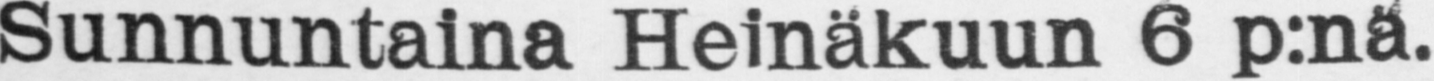Sunnuntaina Heinäkuun 6 p:nä.
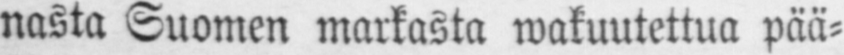nasta Suomen markasta wakuutettua pää-
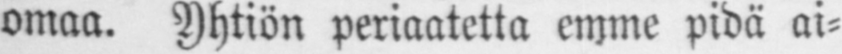omaa. Yhtiön periaatetta emme pidä ai-
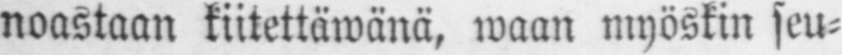noastaan kiitettäwänä, waan myöskin seu-
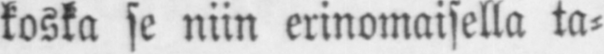koska se niin erinomaisella ta-
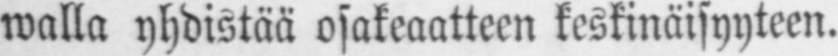walla yhdistää osakeaatteen keskinäisyyteen.
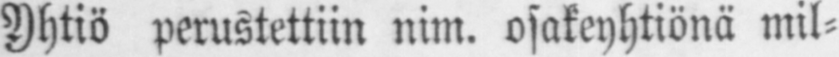Yhtiö perustettiin nim. osakeyhtiönä mil-
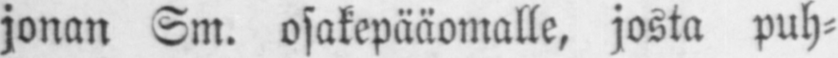jonan Sm. osakepääomalle, josta puh-
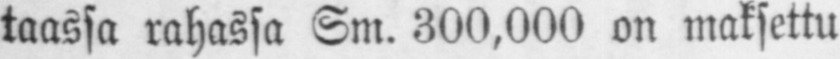taassa rahassa Sm. 300,000 on maksettu
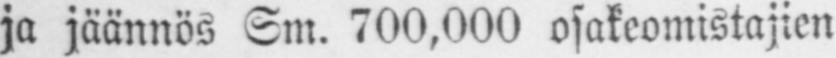ja jäännös Sm. 700,000 osakeomistajien
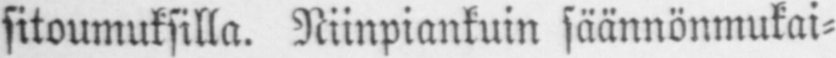sitoumuksilla. Niinpiankuin säännönmukai-
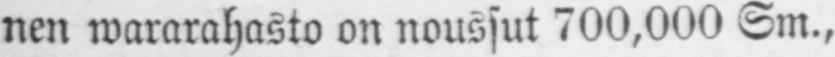nen wararahasto on noussut 700,000 Sm.,
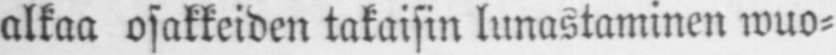alkaa osakkeiden takaisin lunastaminen wuo-
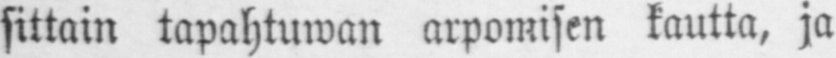sittain tapahtuwan arpomisen kautta, ja
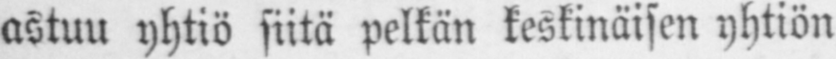astuu yhtiö siitä pelkän keskinäisen yhtiön
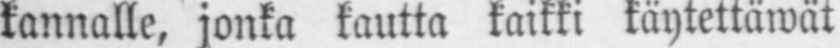kannalle, jonka kautta kaikki käytettäwät
